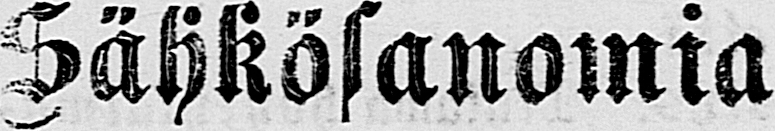Sähkösanomia
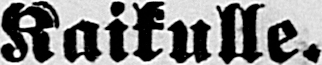Kaikulle.
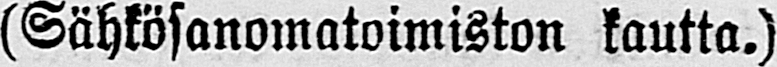(Sähkösanomatoimiston kautta.)
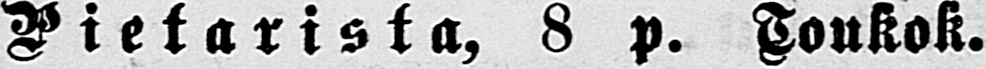Pietarista, 8 p. Toukok.
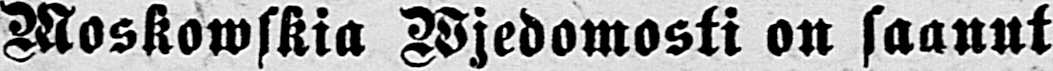Moskowskia Wjedomosti on saanut
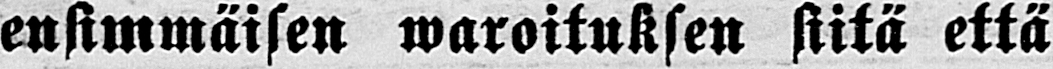ensimmäisen waroituksen siitä että
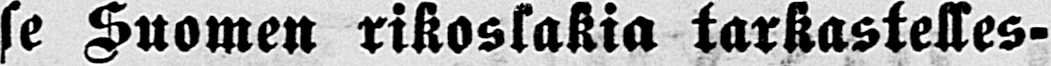se Suomen rikossakia tarkastelles-
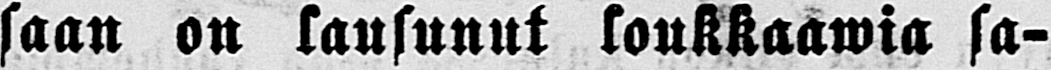saan on lausunut loukkaawia sa-
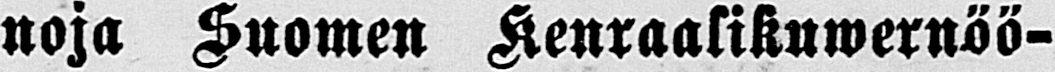noja Suomen Kenraalikuwernöö-
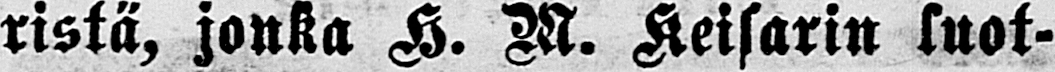ristä, jonka H. W. Keisarin luot-
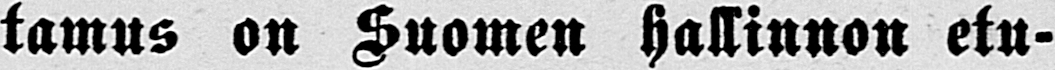tamus on Suomen hallinnon etu-
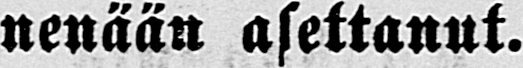nenään asettanut.
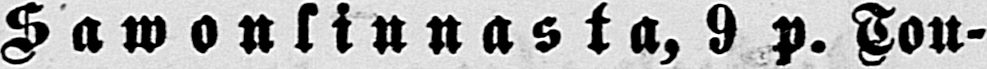Sawonlinnasta, 9p. Tou-
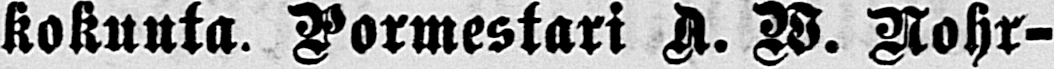kokuuta. Pormestari A. W. Nohr-
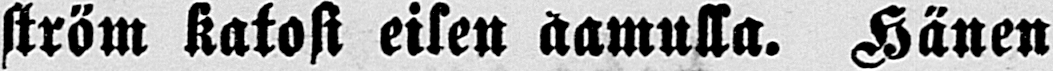ström katosi eisen aamulla. Hänen
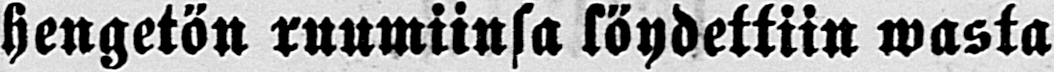hengetön ruumiinsa löydettiin wasta
